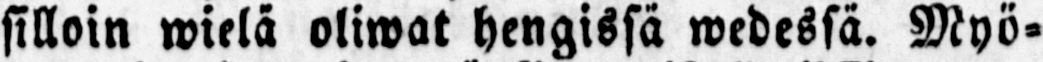silloin wielä oliwat hengissä wedessä. Myö-
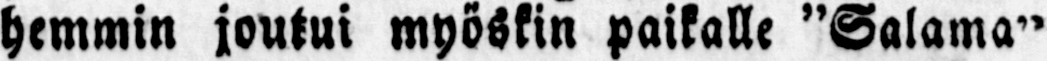hemmin joutui myöskin paikalle "Salama"
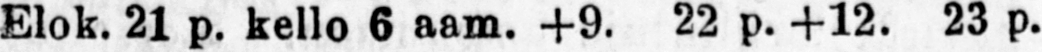Elok. 21 p. Kello 6 aam. +9. 22 p. +12. 23 p.
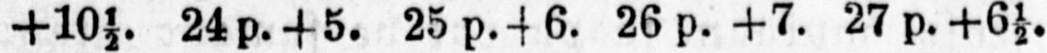+10½ 24 p. 25p.6 6. 26 p.+7. 27p.+6½.
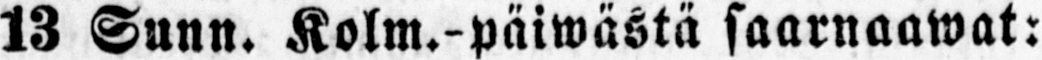13 Suun. Kolm.-päiwästä saarnaawat:
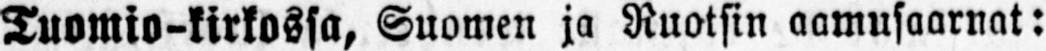Tuomio-kirkossa, Suomen ja Ruotsin aamusaarnat:
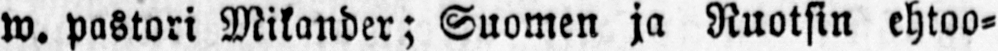w. pastori Mikander; Suomen ja Ruotsin ehtoo-
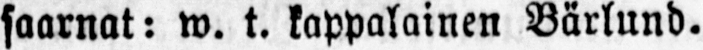saarnat: w. t. kappalainen Bärlund.
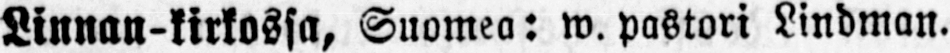Linnau-kirkossa, Suomea: w. pastori Lindman.
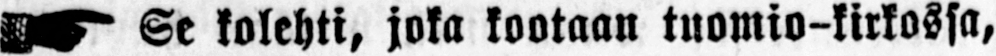- Se kolehti, joka kootaan tuomio-kirkossa,
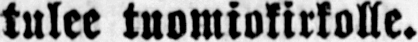tulee tuomiokirkolle.
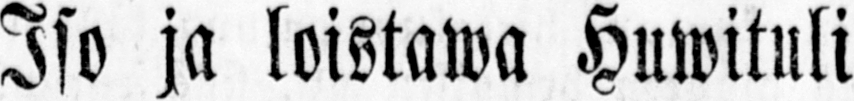Iso ja loistawa Huwituli
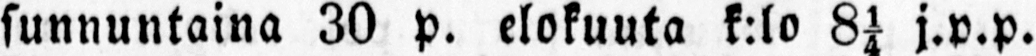sunnuntaina 30 p. elokuuta k:lo 8¼ j.v.P.
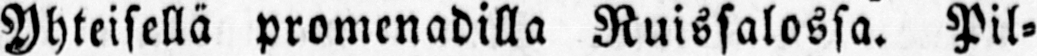Yhteisellä promenadilla Ruissalossa. Pil-
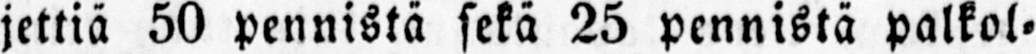jettiä 50 pennistä sekä 25 pennistä palkol-
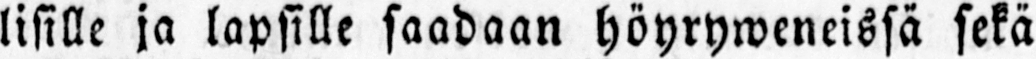lisille ja lapsille saadaan höyryweneissä sekä
